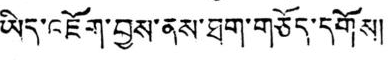ཡིད་འཇོག་བྱས་ནས་ཐག་གཅོད་དགོས།
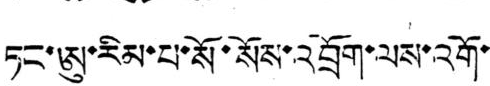ཏང་ཨུ་རིམ་པ་སོ་སོས་འབྲོག་ལས་འགོ་
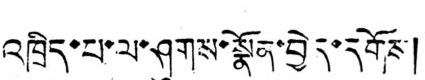འཁྲིད་པ་ལ་ཤུགས་སྣོན་བྱེད་དགོས།
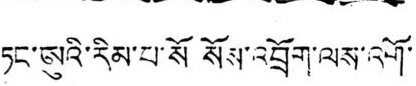ཏང་ཨུའི་རིམ་པ་སོ སོས་འབྲོག་ལས་འགོ་
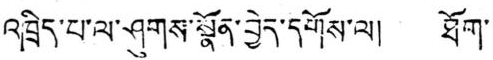འཁྲིད་པ་ལ་ཤགུས་སྣོན་བྱེད་དགོས་ལ། ཐོག་
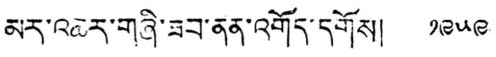མར་འཆར་གཞི་ཟབ་ནན་འགོད་དགོས། ༡༩༥༩
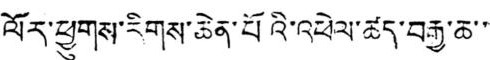ལོར་ཕྱུགས་རིགས་ཆེན་པོའི་འཕེལ་ཚད་བརྒྱ་ཆ་་
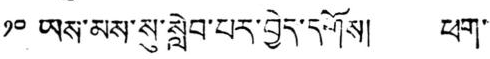༡༠ ཡས་མས་སུ་སླེབ་པར་བྱེད་དགོས། ཕག་
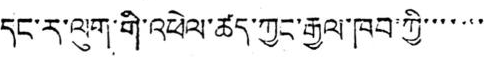དང་ར་ལུག་གི་འཕེལ་ཚད་ཀྱང་རྒྱལ་ཁབ་ཀྱི་་་་་་་
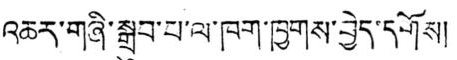འཆར་གཞི་སྒྲུབ་པ་ལ་ཁག་ཁྱགས་བྱེད་དགོས།
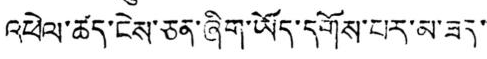འཕེལ་ཚད་ངེས་ཅན་ཞིག་ཡོད་དགོས་པར་མ་ཟད་
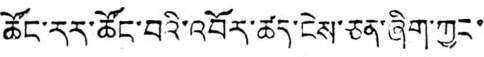ཚོང་རར་ཚོང་བའི་འབོར་ཚད་ངེས་ཅན་ཞིག་ཀྱང་
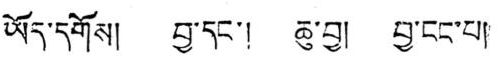ཡོད་དགོས། བྱ་དང་། ཆུ་བྱ། བྱ་ངང་པ།
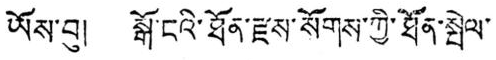ཡོས་བུ། སྒོ་ངའི་ཐོན་རྫས་སོགས་ཀྱི་ཐོན་སྤེལ་
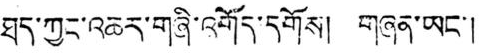ཐད་ཀྱང་འཆར་གཞི་འགོད་དགོས། གཞན་ཡང་།
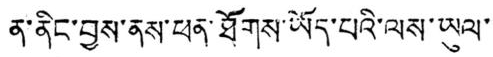ན་ནིང་བྱས་ནས་ཕན་ཐོགས་ཡོད་པའི་ལས་ཡུལ་
